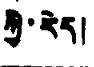ཀྱི་རེད།
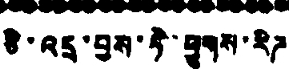ཅི་འདྲ་བྱས་ཏེ་ཕྱུགས་རིཌ
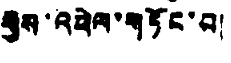རྒྱས་འཕེལ་གཏོང་བ།
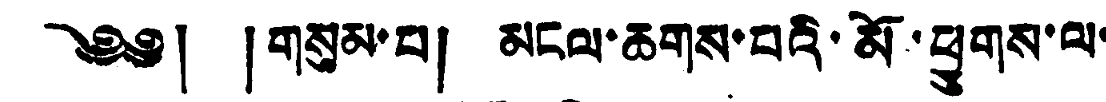༄༅། ། གསུམ་པ། མངལ་ཆགས་པའི་མོ་ཕྱུགས་ལ་
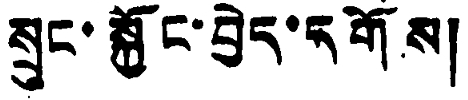སུང་སྐྱོང་བྱེད་དགོས།
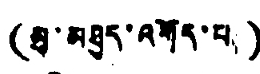(མུ་མཐུད་འགོད་པ།)
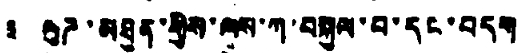༣ ལུཌ་མཐུན་གྱིས་ལས་ཀ་བསྐུལ་བ་དང་བདག
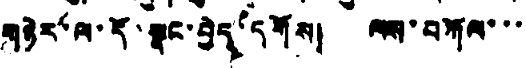གཉེར་ལ་དོ་སྣང་བྱེད་དགོས། ལས་བཀོལ་་་་
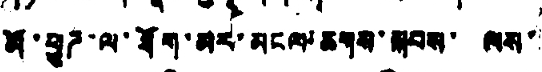མོ་ཕྱུཌ་ལ་ཐོག་མར་མངས་ཆགས་སྐབས་ ལས་
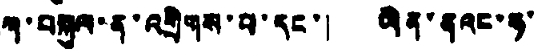ཀ་བསྐྱལ་ན་འགྲིགས་པ་དང་། ཡིན་ནའང་ཧ་་
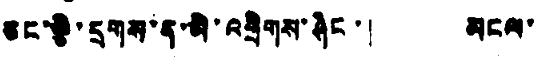ཅང་ལྕི་དྲགས་ན་མི་འབྲིགས་ཞིང་། མངལ་
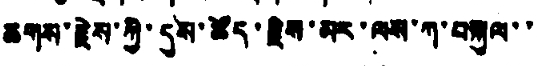ཆགས་རྗེས་ཀྱི་དུས་ཚོད་རྗེས་མར་ལས་ཀ་བསྐུལ་་
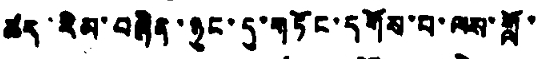ཚད་རིམ་བཞིན་ཉུང་དུ་གཏོང་དགོས་པ་ལས་གློ་
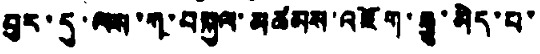བུར་དུ་ལས་ཀ་བསྐུལ་མཚམས་འཇོག་རྒྱུ་མེད་པ་
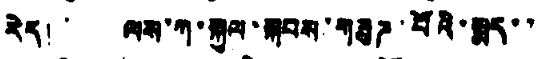རེད། ལས་ཀ་སྐུལ་སྐབས་གཟུཌ་པོའི་སྨད་་
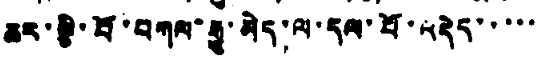ཆར་ལྕི་བོ་བཀལ་རྒྱུ་མེད་ལ་དལ་པོ་འདེད་་་་་
